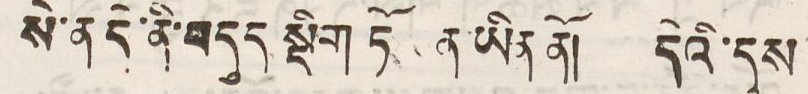སེ་ན དེ་ནི་བདུད སྡིག་ཏོ ན་ཡིན་ནོ། དེའི་དུས
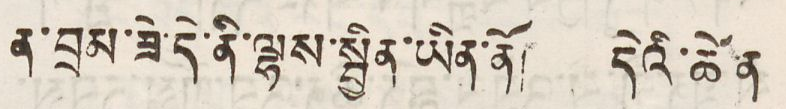ན་བྲམ་ཟེ་དེ་ནི་ལྷས་སྦྱིན་ཡིན་ནོ། དེའི་ཚེ ན
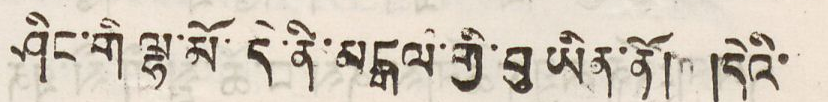ཤིང་གི ལྷ་མོ་དེ་ནི་མངྒལ་གྱི་བུ་ཡིན་ནོ། །དེའི་
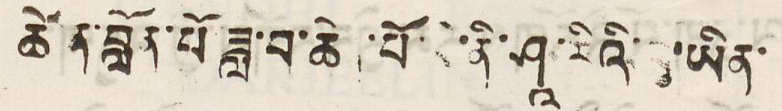ཚེ ན་བློན་པོ་ཟླ་བ་ཆེ ་པོ་ ནི་ཤཱ་རིའི་བུ་ཡིན་
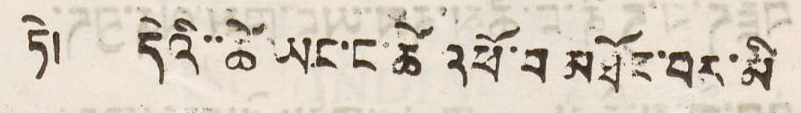ཏེ། དེའི་ཚེ ཡང་ང་ཚོ འཕོ་བ་མཐོང་བར་མི
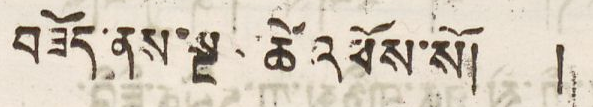བཟོད་ནས་སྔ ཚེ་འཕོས་སོ། །
